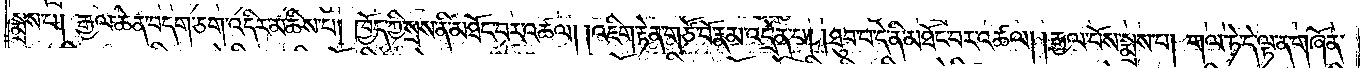སྨྲས་པ། རྒྱལ་ཆེན་བདག་ཅག་འདིར་མཆིས་པ། ཁྱོད་ཀྱི་སྲས་ནི་མཐོང་བར་འཚལ། །འཇིག་རྟེན་གཙོ་བོ་རྣམ་འདྲེན་པ། །ཐུབ་པ་དེ་ནི་མཐོང་བར་འཚལ། །རྒྱལ་པོས་སྨྲས་པ། གལ་ཏེ་དེ་ལྟ་ན་གཞོན་
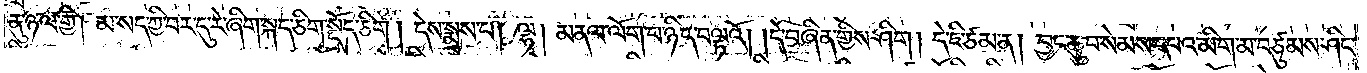ནུ་ཉལ་གྱི། མ་སད་ཀྱི་བར་དུ་རེ་ཞིག་སྐད་ཅིག་སྡོད་ཅིག །དེས་སྨྲས་པ། ལྷ། མནལ་ལོག་པ་ཉིད་བལྟའོ། །དེ་བཞིན་གྱིས་ཤིག །དེ་ཇི་ཙམ་ན། བྱང་ཆུབ་སེམས་དཔའ་མིག་མ་བཙུམས་ཤིང་
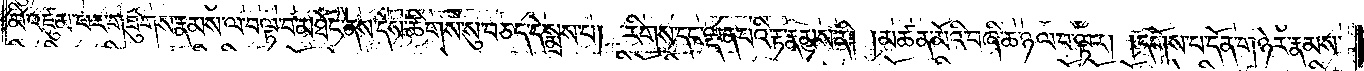མི་འཛུམ་པར་གཟུགས་རྣམས་ལ་བལྟ་བ་མཐོང་ནས་དེས་ཚིགས་སུ་བཅད་དེ་སྨྲས་པ། རིགས་དང་ལྡན་པའི་རྟ་རྣམས་ནི། །མཚན་མོའི་བཞི་ཆ་ཉལ་བ་ལྟར། །དགོས་པ་དོན་གཉེར་རྣམས་
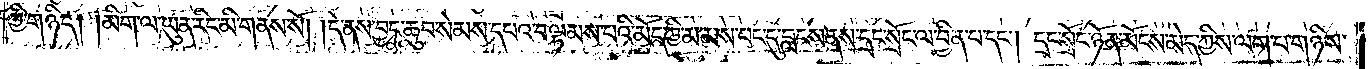ཀྱི་གཉིད། །མིག་ལ་ཡུན་རིང་མི་གནས་སོ། །དེ་ནས་བྱང་ཆུབ་སེམས་དཔའ་བལྟམས་པའི་མོད་ཀྱི་མ་མས་པང་དུ་བླངས་ནས་དྲང་སྲོང་ལ་བྱིན་པ་དང༌། དྲང་སྲོང་ཉོན་མོངས་མེད་ཀྱིས་ལག་པ་གཉིས་
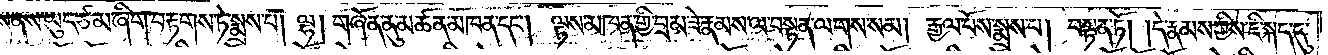ཀྱིས་བླངས་ནས་ཡུད་ཙམ་ཞིག་བརྟགས་ཏེ་སྨྲས་པ། ལྷ། གཞོན་ནུ་མཚན་མཁན་དང༌། ལྟས་མཁན་གྱི་བྲམ་ཟེ་རྣམས་ལ་བསྟན་ལགས་སམ། རྒྱལ་པོས་སྨྲས་པ། བསྟན་ཏོ། །དེ་རྣམས་ཀྱིས་ཇི་སྐད་དུ་
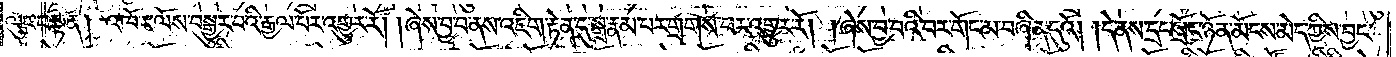ལུང་བསྟན། འཁོར་ལོས་བསྒྱུར་བའི་རྒྱལ་པོར་འགྱུར་རོ། །ཞེས་བྱ་བ་ནས་འཇིག་རྟེན་དུ་སྒྲ་རྣམ་པར་གྲགས་པར་འགྱུར་རོ། །ཞེས་བྱ་བའི་བར་གོང་མ་བཞིན་དུའོ། །དེ་ནས་དྲང་སྲོང་ཉོན་མོངས་མེད་ཀྱིས་བྱང་
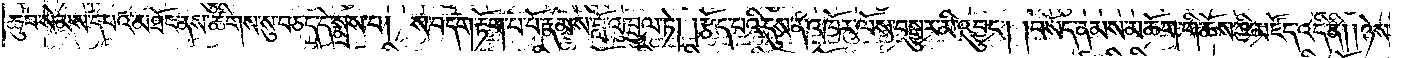ཆུབ་སེམས་དཔའ་མཐོང་ནས་ཚིགས་སུ་བཅད་དེ་སྨྲས་པ། ས་བདག་རྟོག་པ་པོ་རྣམས་བློ་འཁྲུལ་ཏེ། །རྩོད་པའི་དུས་ན་འཁོར་ལོས་བསྒྱུར་མི་འབྱུང༌། །བསོད་ནམས་མཆོག་གི་ཆོས་ཀྱི་མཛོད་འདི་ནི། །ཉེས་
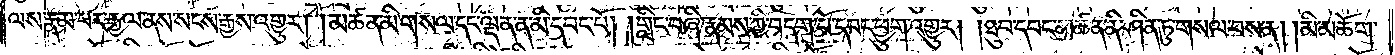ལས་རྣམ་པར་རྒྱལ་ནས་སངས་རྒྱས་འགྱུར། །མཚན་མི་གསལ་དང་ལྡན་ན་མི་དབང་པོ། །གླིང་བཞི་རྣམས་ཀྱི་བདག་པོ་དབང་ཕྱུག་འགྱུར། །ཐུབ་དབང་མཚན་ནི་ཤིན་ཏུ་གསལ་བས་ན། །མི་མཆོག་
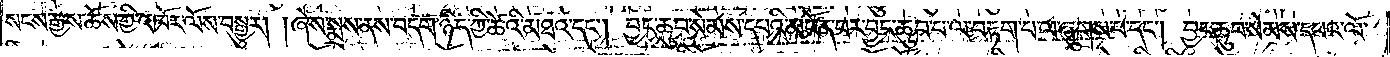སངས་རྒྱས་ཆོས་ཀྱི་འཁོར་ལོས་བསྒྱུར། །ཞེས་སྨྲས་ནས་བདག་ཉིད་ཀྱི་ཚེའི་མཐའ་དང༌། བྱང་ཆུབ་སེམས་དཔའི་མངོན་པར་བྱང་ཆུབ་པ་ལ་བརྟག་པ་ལ་ཞུགས་པ་དང༌། བྱང་ཆུབ་སེམས་དཔའ་ལོ་
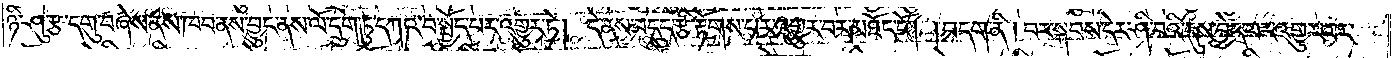ཉི་ཤུ་རྩ་དགུ་བཞེས་ནས་ཁབ་ནས་བྱུང་ནས་ལོ་དྲུག་ཏུ་དཀའ་བ་སྤྱོད་པར་འགྱུར་ཏེ། དེ་ནས་བདུད་རྩི་རྟོགས་པར་འགྱུར་བར་མཐོང་ངོ༌། །བདག་ནི། བར་སྐབས་དེར་ཤི་བའི་དུས་བྱེད་པར་འགྱུར་པར་
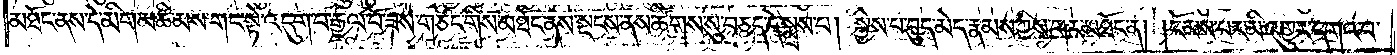མཐོང་ནས་དེ་མིག་མཆི་མས་གང་སྟེ་འདུག་པ་རྒྱལ་པོ་ཟས་གཙང་གིས་མཐོང་ནས་སྡངས་ནས་ཚིགས་སུ་བཅད་དེ་སྨྲས་པ། སྐྱེ་བ་བུད་མེད་རྣམས་ཀྱིས་གར་མཐོང་ན། ངོམས་པར་མི་འགྱུར་དགའ་བ་
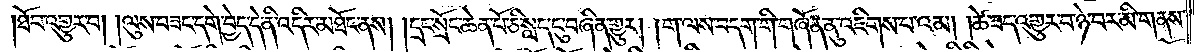།ཐོབ་འགྱུར་བ། །ལུས་བཟང་དགེ་བྱེད་དེ་ནི་འདིར་མཐོང་ནས། །དྲང་སྲོང་ཆེན་པོ་ཅི་སླད་ངུ་བཞིན་གྱུར། །ག་ལས་བདག་གི་གཞོན་ནུ་འཇིགས་པ་འམ། །ཚེ་ཟད་འགྱུར་བ་ཉེ་བར་མི་གནས་
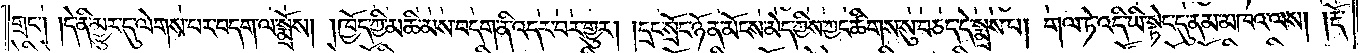གྲང༌། །དེ་ནི་མྱུར་དུ་ལེགས་པར་བདག་ལ་སྨྲོས། །ཁྱོད་ཀྱི་མཆི་མས་བདག་ནི་འདར་བར་གྱུར། །དྲང་སྲོང་ཉོན་མོངས་མེད་ཀྱིས་ཀྱང་ཚིགས་སུ་བཅད་དེ་སྨྲས་པ། གལ་ཏེ་འདི་ཡི་སྟེང་དུ་ནམ་མཁའ་ལས། །རྡོ་
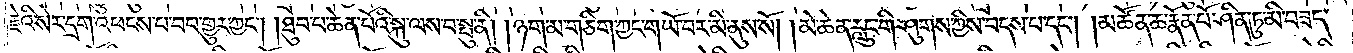རྗེའི་སེར་དྲག་འཕངས་པ་བབ་གྱུར་ཀྱང༌། །ཐུབ་པ་ཆེན་པོའི་སྐུ་ལས་བ་སྤུ་ནི། །ཉག་མ་གཅིག་ཀྱང་གཡོ་བར་མི་ནུས་སོ། །མེ་ཆེན་རླུང་གི་ཤུགས་ཀྱིས་བདས་པ་དང༌། མཚོན་ཆ་རྣོན་པོ་ཤིན་ཏུ་མི་བཟད་
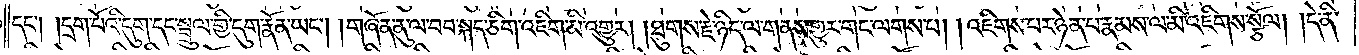དང༌། །དྲག་པོའི་དུག་དང་སྦྲུལ་གྱི་དུག་རྣོན་ཡང༌། །གཞོན་ནུ་ལ་བབ་སྐད་ཅིག་འཇིག་མི་འགྱུར། །ཐུགས་རྗེ་ཉིད་ལ་གནས་གྱུར་གང་ལགས་པ། །འཇིགས་པར་ཉེན་པ་རྣམས་ལ་མི་འཇིགས་སྩོལ། །དེ་ནི་
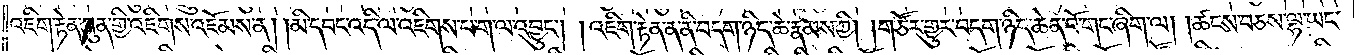འཇིག་རྟེན་ཀུན་གྱི་འཇིགས་འཇོམས་ན། །མི་དབང་འདི་ལ་འཇིགས་པ་ག་ལ་འབྱུང༌། །འཇིག་རྟེན་ན་ནི་བདག་ཉིད་ཆེ་རྣམས་ཀྱི། །གཙོར་གྱུར་བདག་ཉིད་ཆེན་པོ་གང་ཞིག་ལ། །ཚངས་བཅས་ལྷ་ཡང་
